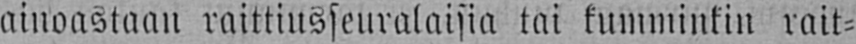ainoastaan raittiusseuralaisia tai kumminkin rait-
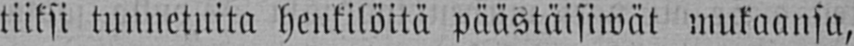tiiksi tunnetuita henkilöitä päästäisiwät mukaansa,
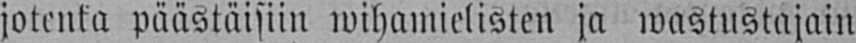jotenka päästäisiin wihamielisten ja wastustajain
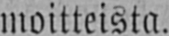moitteista.
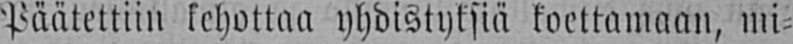Päätettiin kehottaa yhdistyksiä koettamaan, mi-
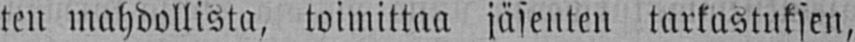ten mahdollista, toimittaa jäsenten tarkastuksen,
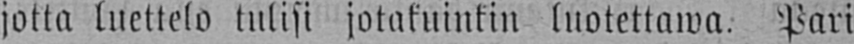jotta luettelo tulisi jotakuinkin luotettawa. Pari
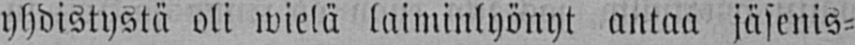yhdistystä oli wielä laiminlyönyt antaa jäsenis-
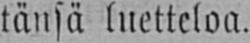tänsä luetteloa.
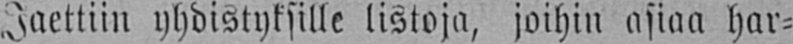Jaettiin yhdistyksille listoja, joihin asiaa har-
